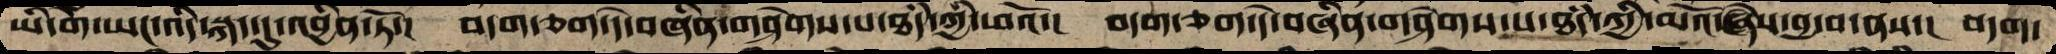ཡི་གེ་ཡང་འདི་སྐད་དུ་འབྱིན་ཏོ་།   བདག་ཅག་དེ་བཞིན་གཤེགས་པ་ཐཾད་ཀྱི་ཕའོ་།  བདག་ཅག་དེ་བཞིན་གཤེགས་པ་ཐཾད་ཀྱི་མའོ་ཞེས་བྱ་བ་ནས་།  བདག་
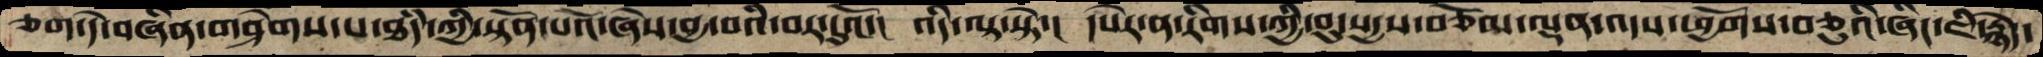ཅག་དེ་བཞིན་གཤེགས་པ་ཐཾད་ཀྱི་སྟོན་པའོ་ཞེས་བྱ་བའི་བར་དུའོ་།   འདི་ལྟ་སྟེ་།   དཔེར་ན་རིགས་ཀྱི་བུ་སདྱས་བཅོམ་ལྡན་འདས་ཕྱོགས་བཅུའི་ཞིང་ཇི་རྙེད་
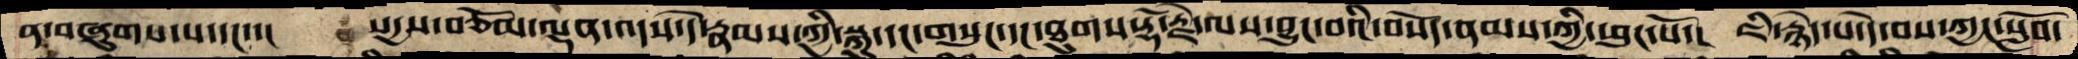ན་བཞུགས་པ་དང་་།  སདྱས་བཅོམ་ལྡན་འདས་དེ་རྣམས་ཀྱི་སྐུ་དང་གསུང་དང་ཐུགས་རྡོ་རྗེ་ལས་བྱུང་བའི་བསོད་ནམས་ཀྱི་ཕུང་པོ་།   ཇི་རྙེད་པ་དེ་བས་ཀྱང་སློབ་
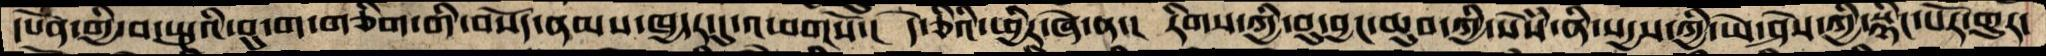དཔོན་གྱི་བ་སྤུའི་བུ་ག་གཅིག་གི་བསོད་ནམས་ཁྱདར་དུ་འཕགསོ་།   དེ་ཅིའི་ཕྱིར་ཞེ་ན་།  རིགས་ཀྱི་བུ་བྱང་ཆུབ་ཀྱི་སེསཾ་ནི་སདྱས་ཀྱི་ཡེ་ཤེས་ཀྱི་སྙིང་པོར་གྱུར་
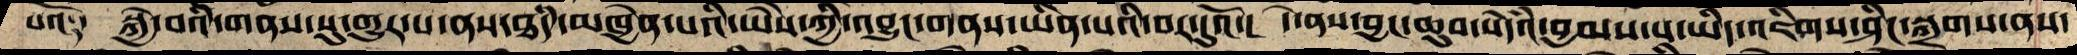པའོ༑   སྐྱེ་བའི་གནས་སུ་གྱུར་པ་ནས་ཐཾད་མཁྱེན་པའི་ཡཻས་ཀྱི་འབྱུང་གནས་ཡིན་པའི་བར་དུའོ་།   དེ་ནས་བྱང་ཆུབ་སེདཾའ་བྱམས་པ་ཡིད་འཇིགས་ཤིང་སྐྲགས་ནས་
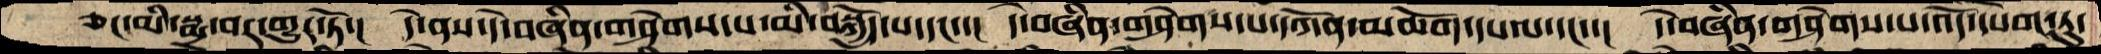ཅང་མི་སྨྲ་བར་གྱུར་ཏོ་།  དེ་ནས་དེ་བཞིན་གཤེགས་པ་མི་བསྐྱོད་པ་དང་་།  དེ་བཞིན་གཤེགས་པ་དཀོན་མཆོག་དཔལ་དང་་།  དེ་བཞིན་གཤེགས་པ་འོད་དཔག་ཏུ་
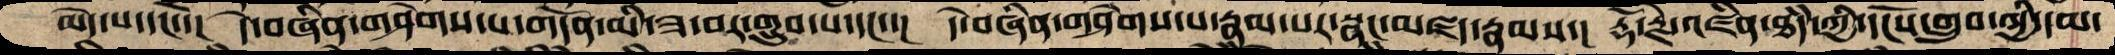མེད་པ་དང་་།  དེ་བཞིན་གཤེགས་པ་གདོན་མི་ཟ་བར་གྲུབ་པ་དང་་།  དེ་བཞིན་གཤེགས་པ་རྣམ་པར་སྣང་མཛད་རྣམས་།  རྡོ་རྗེ་འཛིན་ཐདཾ་ཀྱི་དངོས་གྲུབ་ཀྱི་དམ་
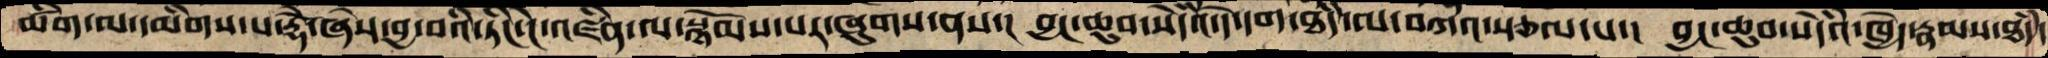ཚིག་ལ་དམིགས་པ་རྡོེ་ཞེས་བྱ་བའི་ཏིང་ངེ་འཛིན་ལ་སྙོམས་པར་ཞུགས་ནས་།  བྱང་ཆུབ་སེདཾའ་དེ་དག་ཐདཾ་ལ་བཀའ་སྩལ་པ་།  བྱང་ཆུབ་སེདཾའ་ཁྱེད་རྣམས་ཐདཾ་
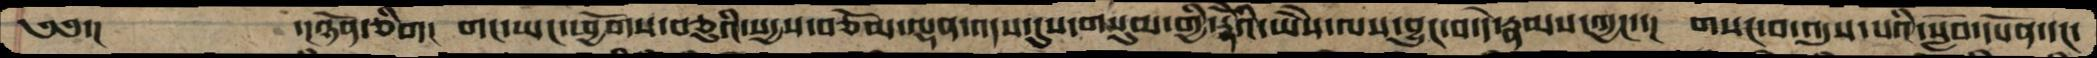༄༅་།    ་།ཉོན་ཅིག།  གང་ཡང་ཕྱོགས་བཅུའི་སདྱས་བཅོམ་ལྡན་འདས་དུས་གསུམ་གྱི་རྡོེའི་ཡཻས་ལས་བྱུང་བ་དེ་རྣམས་ཀྱང་་།  གསང་བ་འདུས་པའི་སློབ་དཔོན་དང་
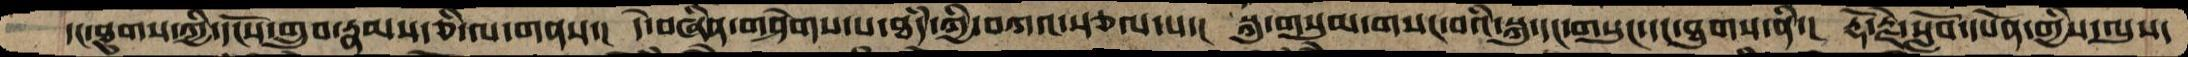དང་ཐུགས་ཀྱི་དངོས་གྲུབ་རྣམས་ཅི་ལ་གནས་།  དེ་བཞིན་གཤེགས་པ་ཐཾད་ཀྱི་བཀའ་སྩལ་པ་།  སྐུ་གསུམ་གསང་བའི་སྐུ་དང་གསུང་དང་ཐུགས་ནི་།  རྡོ་རྗེ་སློབ་དཔོན་གྱིས་ལུས་
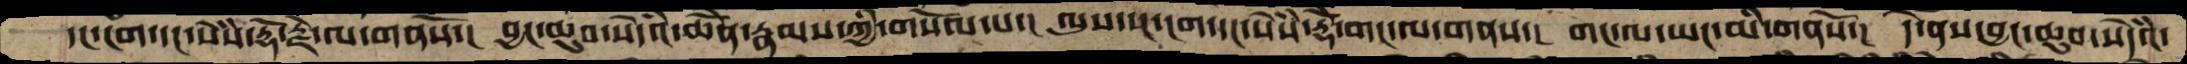དང་ངག་དང་སེསཾ་རྡོ་རྗེ་ལ་གནསོ་།  བྱང་ཆུབ་སེདཾའ་ཆེནོ་རྣམས་ཀྱི་གསོལ་པ་།  ལུས་དང་ངག་དང་སེསཾ་རྡོེ་གང་ལ་གནས་།  གང་ལ་ཡང་མི་གནསོ་།  དེ་ནས་བྱང་ཆུབ་སེདཾའ་
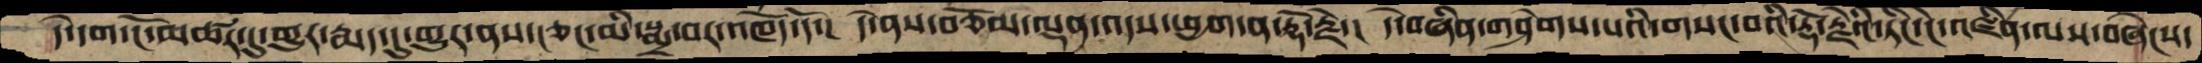དེ་དག་ངོ་མཚར་དུ་གྱུར་རྨད་དུ་གྱུར་ནས་ངཅང་མི་སྨྲ་བར་འཁོད་དོ་།  དེ་ནས་བཅོམ་ལྡན་འདས་ཕྱག་ན་རྡོ་རྗེ་།  དེ་བཞིན་གཤེགས་པའི་གསང་བའི་རྡོ་རྗེའི་ཏིང་ངེ་འཛིན་ལས་བཞེངས་
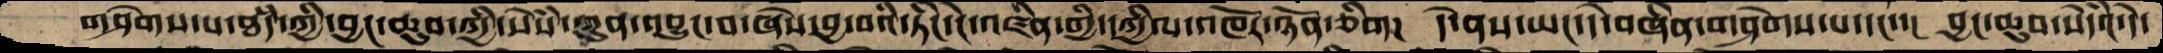གཤེགས་པ་ཐཾད་ཀྱི་བྱང་ཆུབ་ཀྱི་སེསཾ་ཀུན་འབྱུང་བ་ཞེས་བྱ་བའི་ཏིང་ངེ་འཛིན་གྱི་དཀྱིལ་འཁོར་ཉོན་ཅིག།   དེ་ནས་ཡང་དེ་བཞིན་གཤེགས་པ་དང་་།  བྱང་ཆུབ་སེདཾའ་དེ་
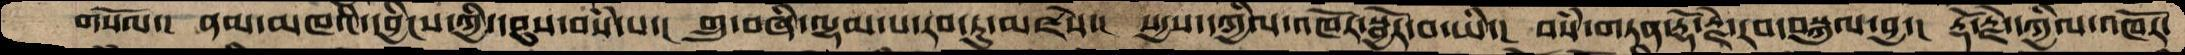གསོལ་།  ནམ་མཁའི་དབྱིངས་ཀྱི་དབུས་བསཾ་པ་།  གྲུབ་བཞི་ལྷམ་པ་རབ་ཏུ་མཛེས་།  སདྱས་དཀྱིལ་འཁོར་སྦྱོར་བ་ཡི་།  བསཾ་གཏན་རྡོ་རྗེ་རབ་བསྐུལ་བྱ་།  རྡོ་རྗེ་དཀྱིལ་འཁོར་
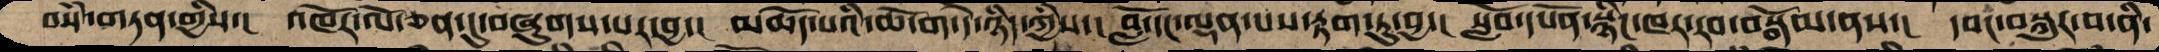བསཾ་གཏན་གྱིས་།  འཁོར་ལོ་ཅན་དུ་བཞུགས་པར་བྱ་།  མཆོད་པའི་ཆོ་ག་དེ་ཉིད་ཀྱིས་།  བློ་དང་ལྡན་པས་རྟག་ཏུ་བྱ་།  སློབ་དཔོན་སྙིང་ཁར་རབ་བསྒོམ་ནས་།  དབང་བསྐུར་བ་ནི་
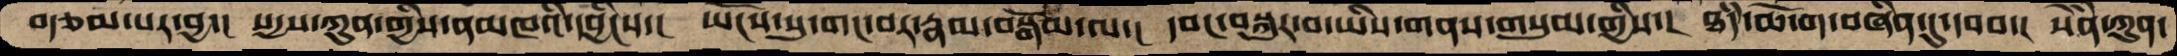བརྩམ་པར་བྱ་།  སདྱས་ཀུན་གྱིས་ནམཁའི་དབྱིངས་།  ཡོངས་སུ་གང་བར་རྣམ་བསྒོམ་ལ་།  དབང་བསྐུར་བ་ཡིས་གནས་གསུམ་གྱིས་།  ཐདཾ་ཆོ་ག་བཞིན་དུ་དབབ་།  སེཾན་ཀུན་
